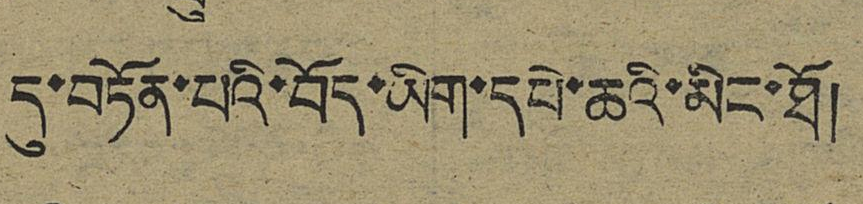དུ་བཏོན་པའི་བོད་ཡིག་དཔེ་ཆའི་མིང་ཐོ།
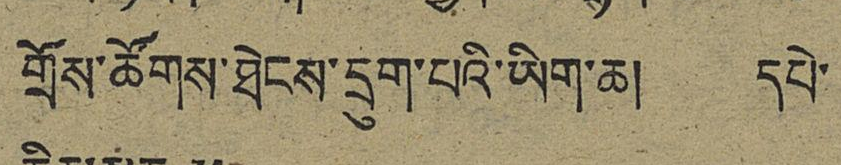གྲོས་ཚོགས་ཐེངས་དྲུག་པའི་ཡིག་ཆ། དཔེ་
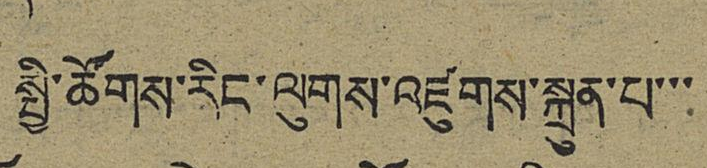སྤྱི་ཚོགས་རིང་ལུགས་འཛུགས་སྐྲུན་པ་་་
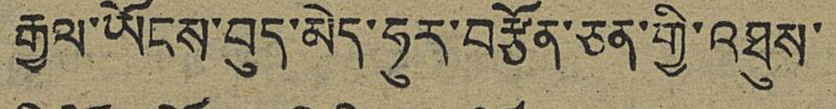རྒྱལ་ཡོངས་བུད་མེད་ཧུར་བརྩོན་ཅན་གྱི་འཐུས་
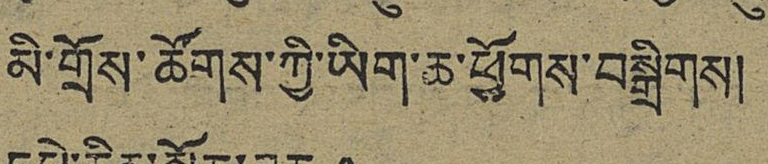མི་གྲོས་ཚོགས་ཀྱི་ཡིག་ཅ་ཕྱོགས་བསྒྲིགས།
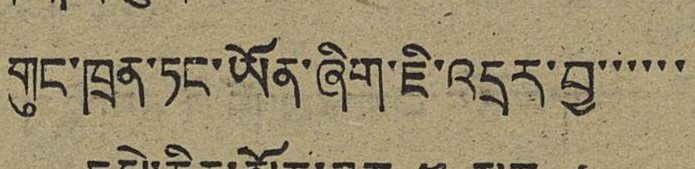གུང་ཁྲན་ཏང་ཡོན་ཞིག་ཇི་འདར་བྱ་་་་་་
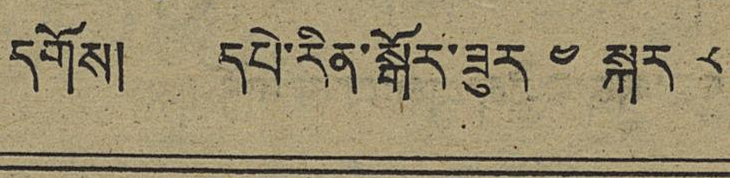དགོས། དཔེ་རིན་སྒོར་ཟུར ༤ སྐར ༨
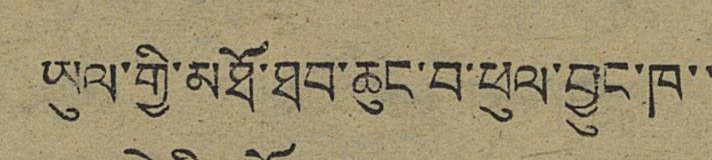ཡུལ་གྱི་མཐོ་ཐབ་ཆུང་བ་ཕུལ་བྱུང་ཁ་་
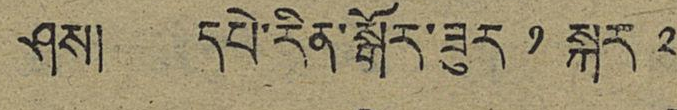ཤས། དཔེ་རིན་སྒོར་ཟུར ༡ སྐར ༢
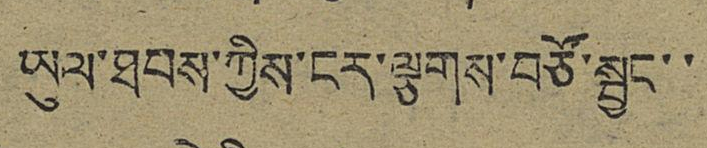ཡུལ་ཐབས་ཀྱིས་ངར་ལྕགས་བཙོ་སྦྱང་་
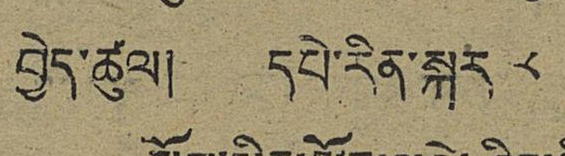བྱེད་ཚུལ། དཔེ་རིན་སྐར ༨
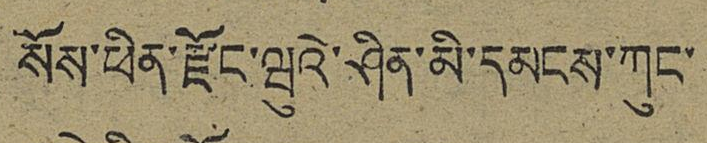སོས་ཕིན་རྫོང་ཝུའེ་ཤིན་མི་དམངས་ཀུང་
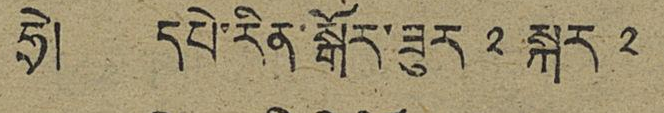ཧྲེ། དཔེ་རིན་སྒོར་ཟུར ༢ སྐར ༢
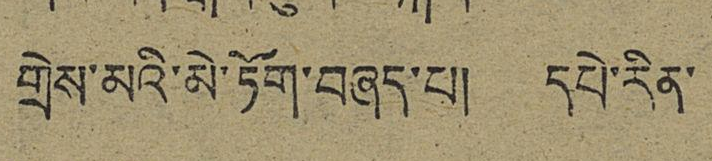གྲེས་མའི་མེ་ཏོག་བཞད་པ། དཔེ་རིན་
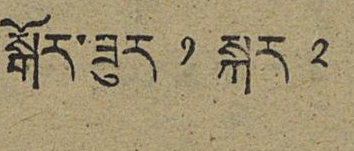སྒོར་ཟུར སྐར ༢
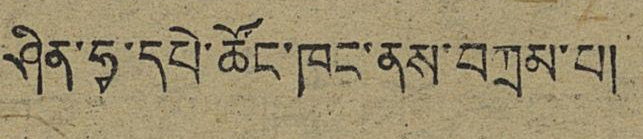ཤིན་ཧྭ་དཔེ་ཚོང་ཁང་ནས་བགྲམ་པ།
